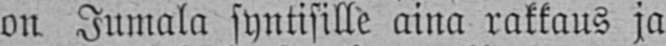on Jumala syntisille aina rakkaus ja
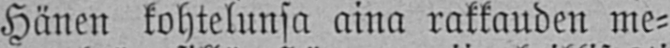Hänen kohtelunsa aina rakkauden me-
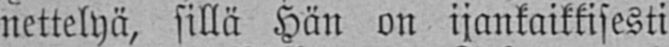nettelyä, sillä Hän on ijankaikkisesti
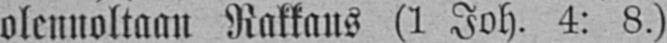olennoltaan Rakkaus (1 Joh. 4: 8.)
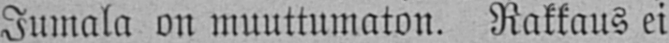Jumala on muuttumaton. Rakkaus ei
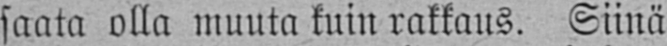saata olla muuta kuin rakkaus. Siinä
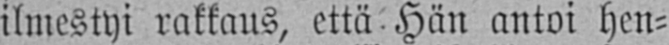ilmestyi rakkaus, että Hän antoi hen-
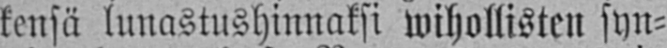kensä lunastushinnaksi wihollisten syn-
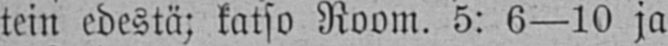tein edestä; katso Room. 5: 6 —10 ja
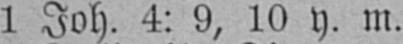1 Joh. 4: 9, 10 y. m.
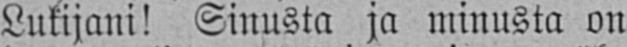Lukijani! Sinusta ja minusta on
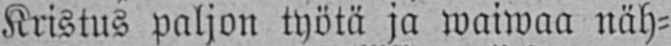Kristus paljon työtä ja waiwaa näh-
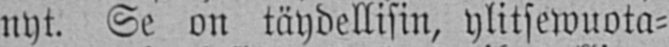nyt. Se on täydellisin, ylitsewuota-
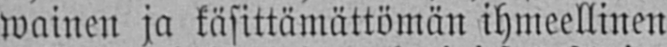wainen ja käsittämättömän ihmeellinen
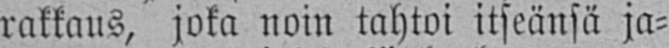rakkaus, joka noin tahtoi itseänsä ja-
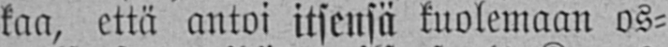kaa, että antoi itsensä kuolemaan os-
